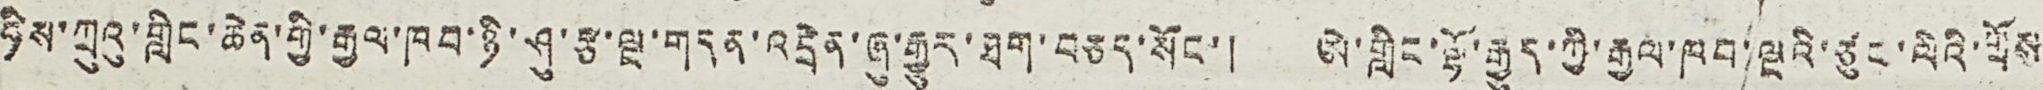ཧིས་ཀྲུའུ་གླིང་ཆེན་གྱི་རྒྱལ་ཁབ་ཉི་ཤུ་རྩ་ལྔ་གདན་འདྲེན་ཞུ་རྒྱུར་ཐག་བཅད་སོང་། ཨེ་གླིང་ལྷོ་རྒྱུད་ཀྱི་རྒྱལ་ཁབ་ལྔའི་ཙུང་ལིའི་གྲོས་
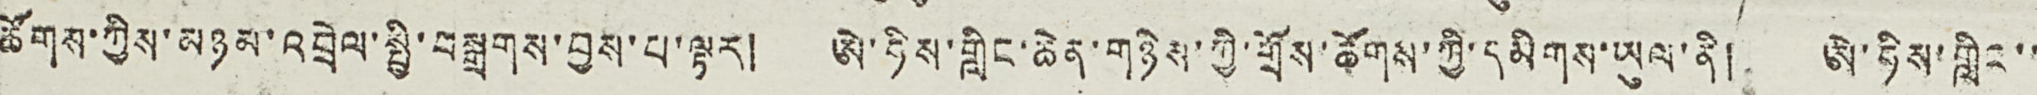ཚོགས་ཀྱིས་མཉམ་འབྲེལ་སྤྱི་བསྒྲགས་བྱས་པ་ལྟར། ཨེ་ཧིས་གླིང་ཆེན་གཉིས་ཀྱི་གྲོས་ཚོགས་ཀྱི་དམིགས་ཡུལ་ནི། ཨེ་ཧིས་གླིང་་་
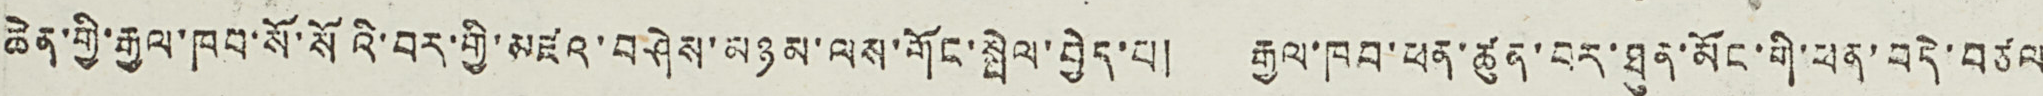ཆེན་གྱི་རྒྱལ་ཁབ་སོ་སོའི་བར་གྱི་མཛའ་བཤེས་མཉམ་ལས་གོང་སྤེལ་བྱེད་པ། རྒྱལ་ཁབ་ཕན་ཚུན་བར་ཐུན་མོང་གི་ཕན་བདེ་བཙལ་
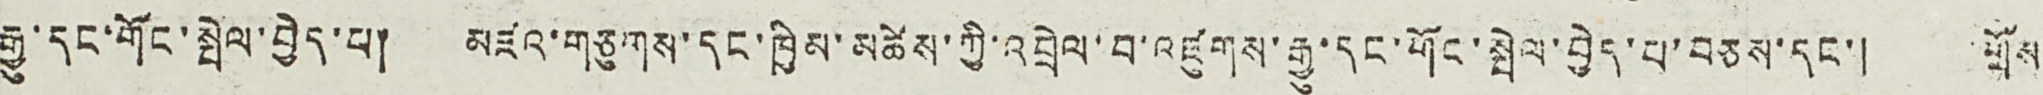རྒྱུ་དང་གོང་སྤེལ་བྱེད་པ། མཛའ་གཅུགས་དང་ཁྱིམ་མཚེས་ཀྱི་འབྲེལ་བ་འཛུགས་རྒྱུ་དང་གོང་སྤེལ་བྱེད་པ་བཅས་དང་། གྲོས་
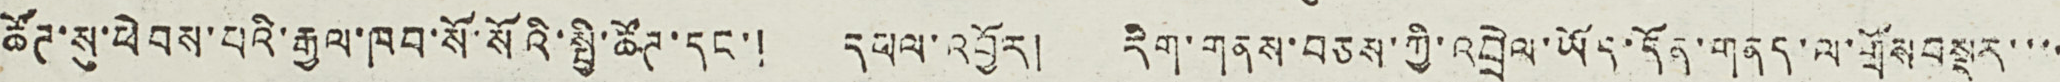ཚོཊ་སུ་ཕེབས་པའི་རྒྱལ་ཁབ་སོ་སོའི་སྤྱི་ཚོཊ་དང་། དཔལ་འབྱོར། རིག་གནས་བཅས་ཀྱི་འབྲེལ་ཡོད་དོན་གནད་ལ་གྲོས བསྡུར་་་་
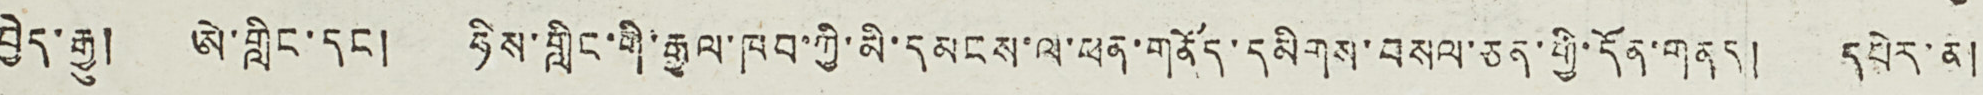བྱེད་རྒྱུ། ཨེ་གླིང་དང ། ཧིས་གླིང་གི་རྒྱལ་ཁབ་ཀྱི་མི་དམངས་ལ་ཕན་གནོད་དམིགས་བསལ་ཅན་གྱི་དོན་གནད། དཔེར་ན།
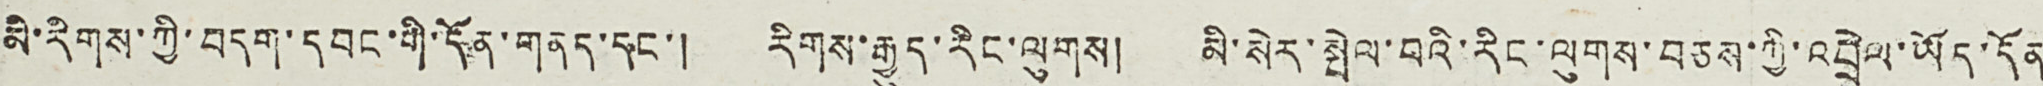མི་རིགས་ཀྱི་བདག་དབང་གི་དོན་གནད་དང་། རིགས་རྒྱུད་རིང་ལུགས། མི་སེར་སྤེལ་བའི་རིང་ལུགས་བཅས་ཀྱི་འབྲེལ་ཡོད་དོན་
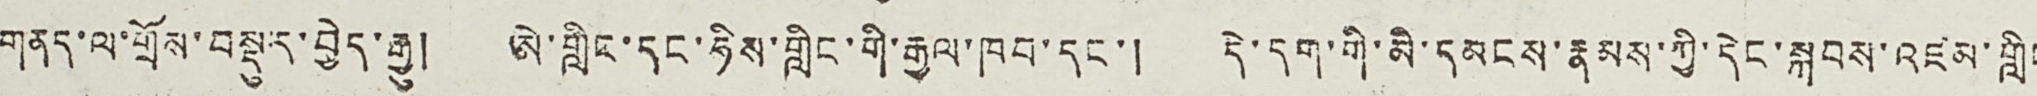གནད་ལ་གྲོས་བསྡུར་བྱེད་རྒྱུ། ཨེ་གླིང་དང་ཧིས་གླིང་གི་རྒྱལ་ཁབ་དང་། དེ་དག་གི་མི་དམངས་རྣམས་ཀྱི་དེང་སྐབས་འཛམ་གླིང
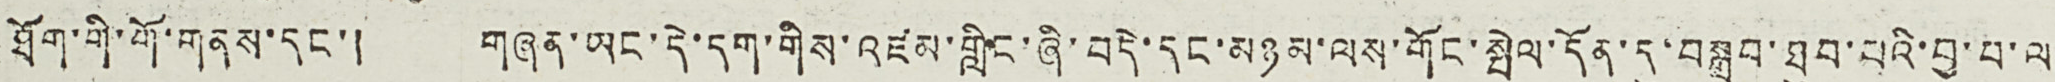ཐོག་གི་གོ་གནས་དང་། གཞན་ཡང་དེ་དག་གིས་འཛམ་གླིང་ཞི་བདེ་དང་མཉམ་ལས་གོང་སྤེལ་དོན་དུ་བསྐྲུབ་ཐུབ་པའི་བྱ་བ་ལ་
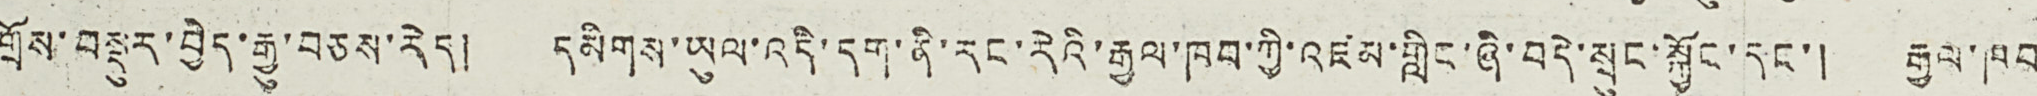གྲོས་བསྡུར་བྱེད་རྒྱུ་བཅས་རེད། དམིགས་ཡུལ་འདི་དག་ནི་རང་རེའི་རྒྱལ་ཁབ་ཀྱི་འཛམ་གླིང་ཞི་བདེ་སྲུང་སྐྱོང་དང་། རྒྱལ་ཁབ་
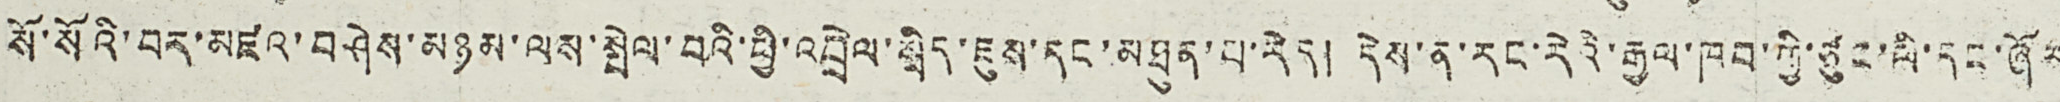སོ་སོའི་བར་མཛའ་བཤེས་མཉམ་ལས་སྤེལ་བའི་ཕྱི་འབྲེལ་སྲིད་ཇུས་དང་མཐུན་པ་རེད། དེས་ན་རང་རེའི་རྒྱལ་ཁབ་ཀྱི་ཙུང་ལི་དང་ཞོར
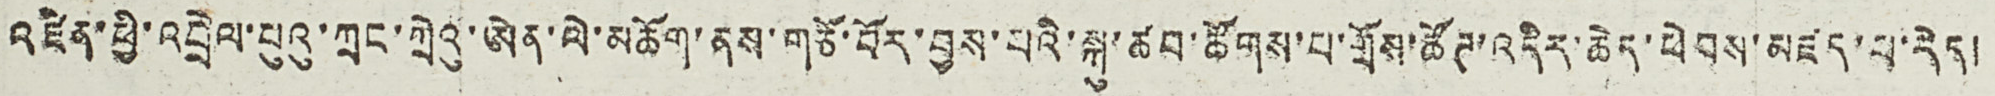འཛིན་ཕྱི་འབྲེལ་པུའུ་ཀྲང་ཀྲེའུ་ཨེན་ལེ་མཆོག་ནས་གཙོ་བོར་བྱས་པའི་སྐུ་ཚབ་ཚོགས་པ་གྲོས་ཚོཊ་འདིར་ཆེད་ཕེབས་མཛད་པ་རེད།
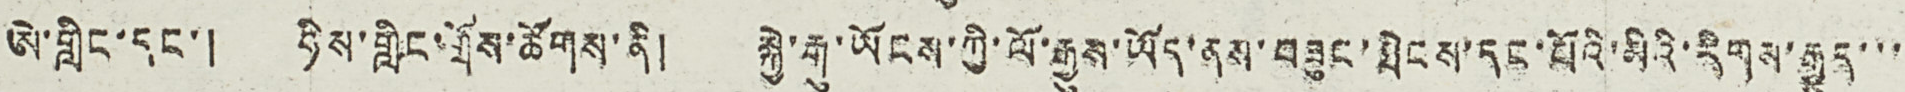ཨེ་གླིང་དང་། ཧིས་གླིང་གྲོས་ཚོགས་ནི། སྐྱེ་རྒུ་ཡོངས་ཀྱི་ལོ་རྒྱུས་ཡོད་ནས་བཟུང་ཐེངས་དང་པོའི་མིའི་རིགས་རྒྱུད་་་་
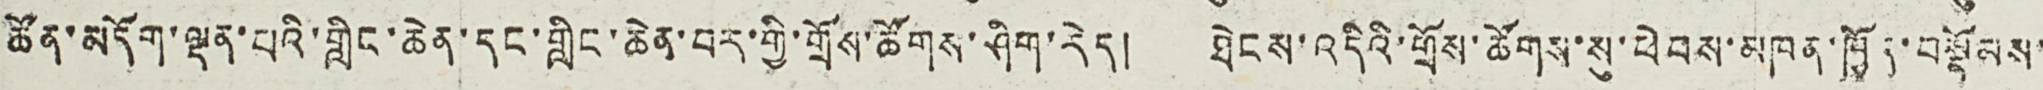ཚོན་མདོག་ལྡན་པའི་གླིང་ཆེན་དང་གླིང་ཆེན་བར་གྱི་གྲོས་ཚོགས་ཤིག་རེད། ཐེངས་འདིའི་གྲོས་ཚོགས་སུ་ཕེབས་མཁན་ཁྱོད་བསྡོམས་་
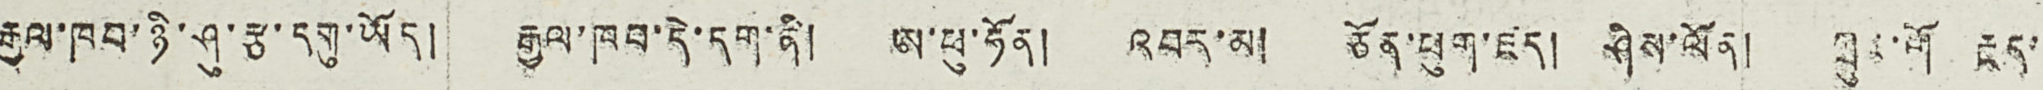རྒྱལ་ཁབ་ཉི་ཤུ་རྩ་དགུ་ཡོད། རྒྱལ་ཁབ་དེ་དག་ནི། ཨ་ཕུ་ཧོན། འབར་མ། ཅོན་ཕུག་ཛད། ཤིས་ལོན། ཀྲུང་གོ རྔད་་
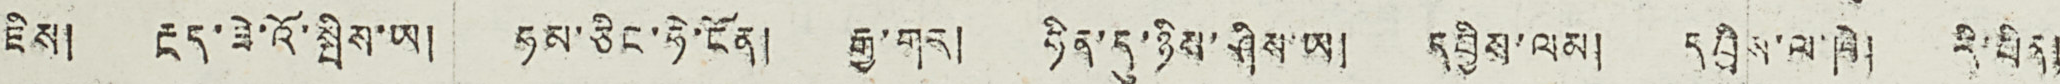ཇིས། རྔད་ཟེ་འོ་སྤིས་ཡ། ཧམ་ཅིང་ཧེ་ངོན། རྒྱ་གར། ཧིན་དུ་ཉིས་ཤིས་ཡ། དབྱིས་ལམ། དབྱིས་ལ་ཁེ། རི་པིན།
